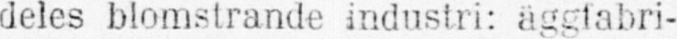deles blomstrande industri: äggfabri-
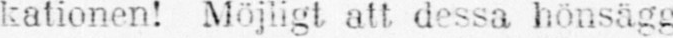kationen! Möjligt att dessa hönsägg
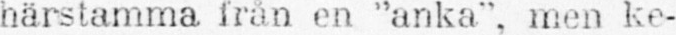härstamma från en “anka“, men ke-
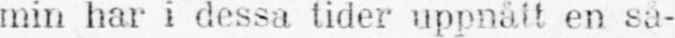min har i dessa tider uppnått en så-
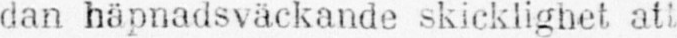dan häpnadsväckande skicklighet att
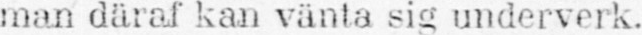man däraf kan vänta sig underverk.
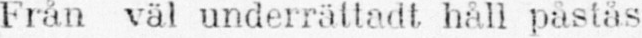Från väl underrättadt håll påstås
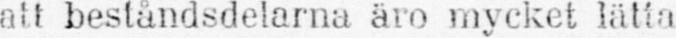att beståndsdelarna äro mycket lätta
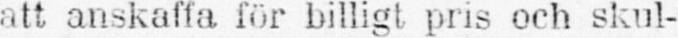att anskaffa för billigt pris och skul-
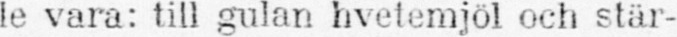le vara: till gulan hvetemjöl och stär-
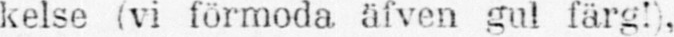kelse (vi förmoda äfven gul färgl).
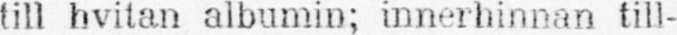till hvitan albumin; innerhinnan till-
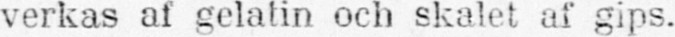verkas af gelatin och skalet af gips.
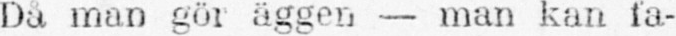Då man gör äggen — man kan fa-
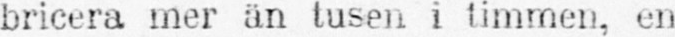bricera mer än tusen i timmen, en
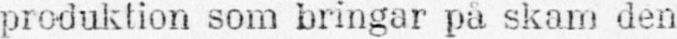produktion som bringar på skam den
